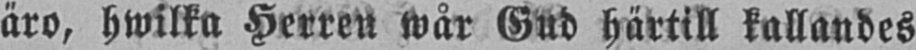äro, hwilka Herren wår Gud härtill kallandes
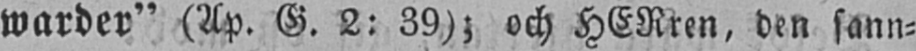warder" (Ap. G. 2: 39); och HERren, den sann-
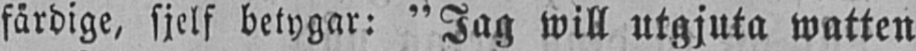färdige, sjelf betygar: "Jag will utgjuta watten
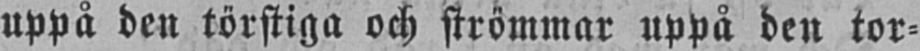uppå den törstiga och strömmar uppå den tor-
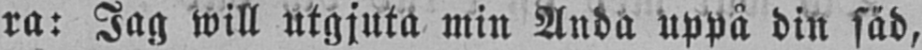ra: Jag will utgjuta min Anda uppå din säd,
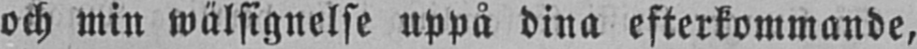och min wälsignelse uppå dina efterkommande,
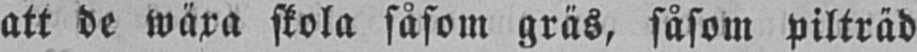att de wäxa skola såsom gräs, såsom pilträd
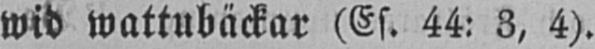wid wattubäckar (Es. 44: 3, 4).
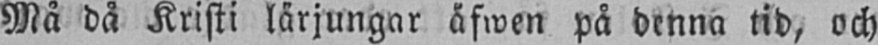Må då Kristi lärjungar äfwen på denna tid, och
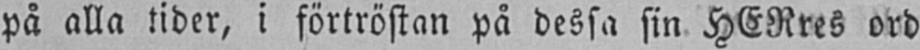på alla tider, i förtröstan på dessa sin HERres ord
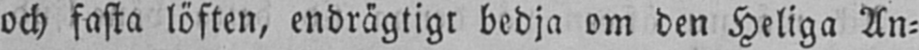och fasta löften, endrägtigt bedja om den Heliga An-
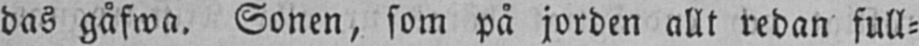das gåfwa. Sonen, som på jorden allt redan full-
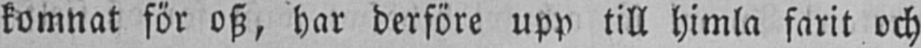komnat för osz, har derföre upp till himla farit och
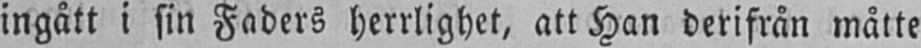ingått i sin Faders herrlighet, att Han derifrån måtte
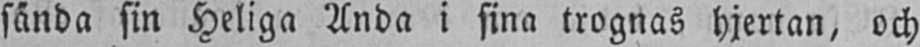sända sin Heliga Anda i sina trognas hjertan, och
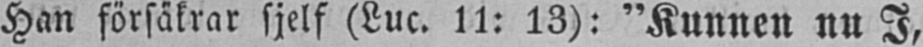Han försäkrar sjelf (Luc. 11: 13): "Kunnen nu I,
